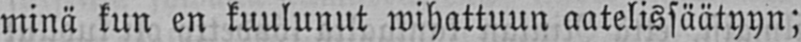minä kun en kuulunut wihattuun aatelissäätyyn;
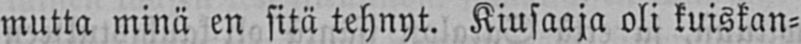mutta minä en sitä tehnyt. Kiusaaja oli kuiskan-
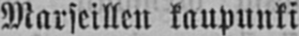Marseillen kaupunki.
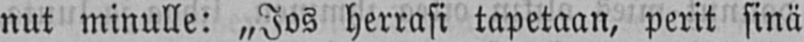nut minulle: „Jos herrasi tapetaan, perit sinä
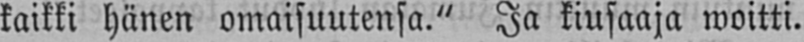kaikki hänen omaisuutensa." Ja kiusaaja woitti.
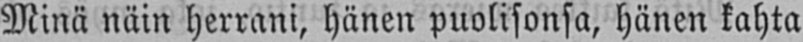Minä näin herrani, hänen puolisonsa, hänen kahta
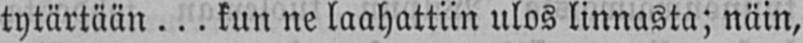tytärtään ... kun ne laahattiin ulos linnasta; näin,
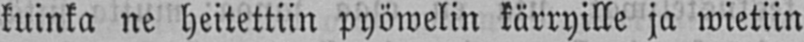kuinka ne heitettiin pyöwelin kärryille ja wietiin
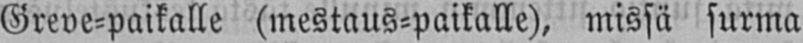Greve-paikalle (mestaus-paikalle), missä surma
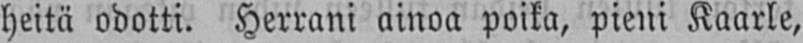heitä odotti. Herrani ainoa poika, pieni Kaarle,
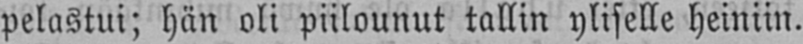pelastui; hän oli piilounut tallin yliselle heiniin.
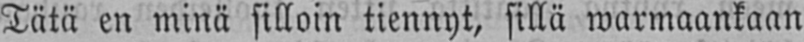Tätä en minä silloin tiennyt, sillä warmaankaan
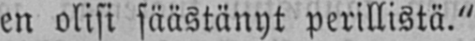en olisi säästänyt perillistä."
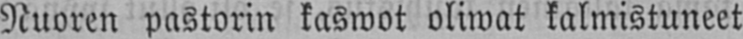Nuoren pastorin kaswot oliwat kalmistuneet
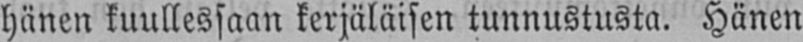hänen kuullessaan kerjäläisen tunnustusta. Hänen
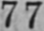77
